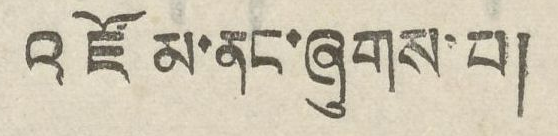འཛོམ་ནང་ཞུགས་པ།
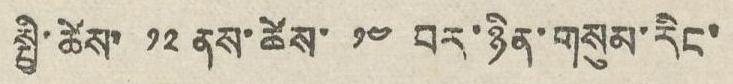སྤྱི་ཚེས་ ༡༢ ནས་ཚེས་ ༡༤ བར་ཉིན་གསུམ་རིང་
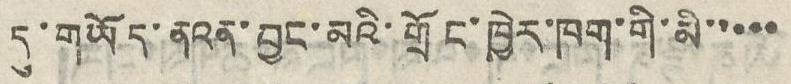དུ་གཡོད་ནའན་བྱང་མའི་གྲོང་ཁྱེར་ཁག་གི་མི་་་་་
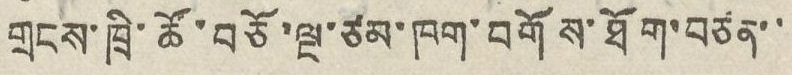གྲངས་ཁྲི་ཚོ་བཅོ་ལྔ་ཙམ་ཁག་བགོས་ཐོག་བཙན་་
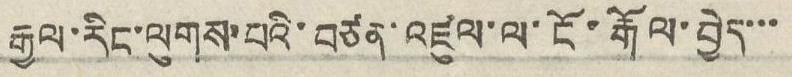རྒྱལ་རིང་ལུགས་པའི་བཙན་འཛུལ་ལ་ངོ་རྒོལ་བྱེད་་་
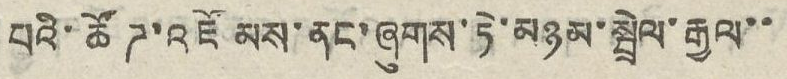པའི་ཚོཌ་འཛོམས་ནང་ཞུགས་ཏེ་མཉམ་སྦྲེལ་རྒྱལ་་
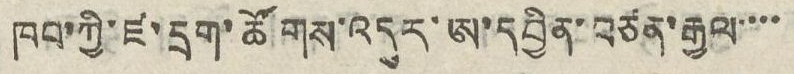ཁབ་ཀྱི་ཛ་དྲག་ཚོགས་འདུར་ཨ་དབྱིན་བཙན་རྒྱལ་་་་
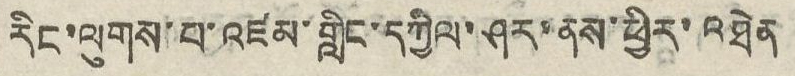རིང་ལུགས་པ་འཛམ་གླིང་དཀྱིལ་ཤར་ནས་ཕྱིར་འཐེན
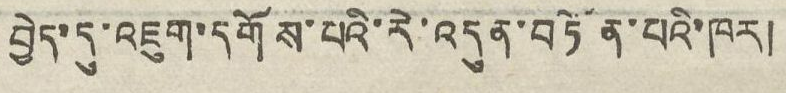བྱེད་དུ་འཇུག་དགོས་པའི་རེ་འདུན་བཏོན་པའི་ཁར།
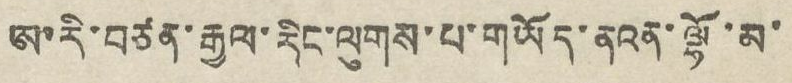ཨ་རི་བཙན་རྒྱལ་རིང་ལུགས་པ་གཡོད་ནའན་ལྷོ་མ་
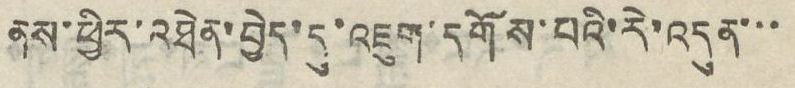ནས་ཕྱིར་འཐེན་བྱེད་དུ་འཇུག་དགོས་པའི་རེ་འདུན་་་
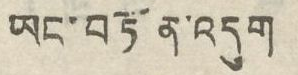ཡང་བཏོན་འདུག
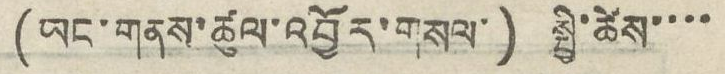(ཡང་གནས་ཚུལ་འབྱོར་གསལ་) སྤྱི་ཚེས་་་་
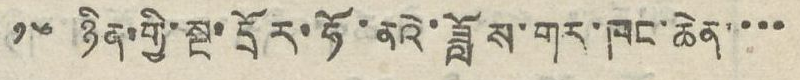༡༦ ཉིན་གྱི་སྔ་དྲོར་ཧོ་ནའེ་ཟློས་གར་ཁང་ཆེན་་་་
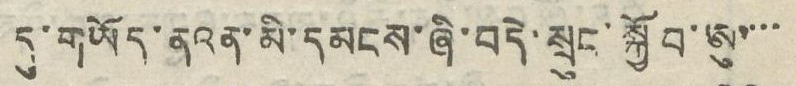དུ་གཡོད་ནའན་མི་དམངས་ཞི་བདེ་སྲུང་སྐྱོབ་ཨུ་་་་
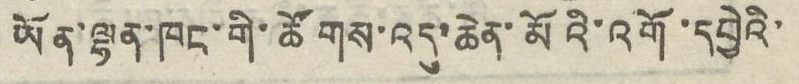ཡོན་ལྷན་ཁང་གི་ཚོགས་འདུ་ཆེན་མོའི་འགོ་དབྱེའི་
